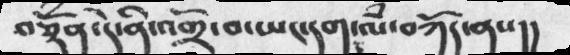བཅྡོན་དེ་ནི་འགྲོ་བ་ཡང་དག་ལཾ་བཀོན་ནས།།
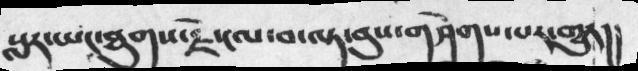སླར་ཡང་ཐུགས་རྗེ་ངལ་བ་ལྟ་བུས་གཤེགས་པར་གྱུར།།
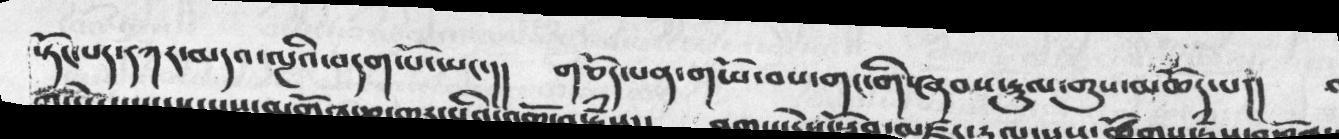སྟོང་པད་དཀར་མདའ་ལྔའི་བདག་པོ་ཡང་།།  གཅོད་པན་གཡོ་བས་གང་གི་ཞབས་རྡུལ་གུས་མཆོད་པ།།
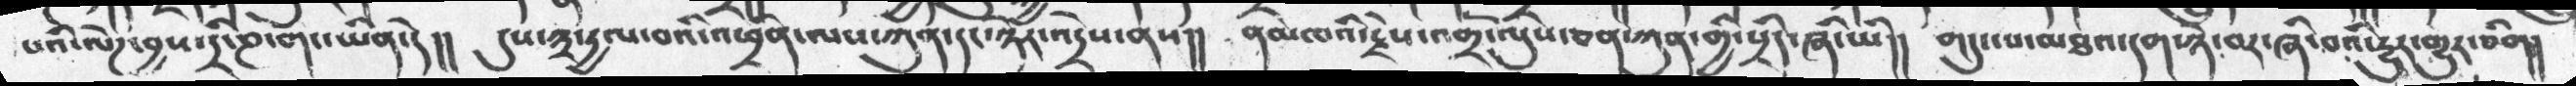པའི་ལེཌ་བྱས་དྲི་ཎ་གང་ཡིན་དེ།།    དུས་༣་རྱལ་བའི་འཕྲིན་ལས་ཀུན་དང་ཉེར་འདྲེས་ནས།།   ནམཁའི་རྗེས་འགྲོ་ལུས་ཅན་ཀུན་གྱི་སྲིད་ཞི་ཡི།།   གདུད་པ་མཐའ་དག་ཉེ་བར་ཞི་བའི་རྱུར་གྱུར་ཅིག།
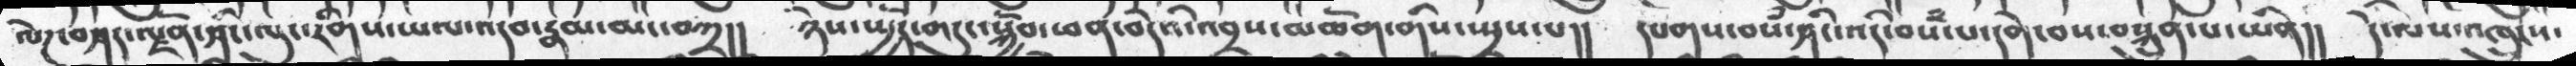ལེཌ་བཤད་ལྗོན་ཤིང་ལུང་རིགས་ཡལ་འདབ་རྣམ་མང་བཀྲ།།    ཉེས་ཡོད་གདུང་སྐྱོབ་ཕན་བདེའི་འབྲས་མཆོག་གིས་ཡྲས་པ།།    དཔག་བསཾ་ཤིང་འདི་བསཾ་པ་དགེ་བས་བསྐྲུན་པ་ཡིན།།    དེ་ལས་འཁྲུངས་
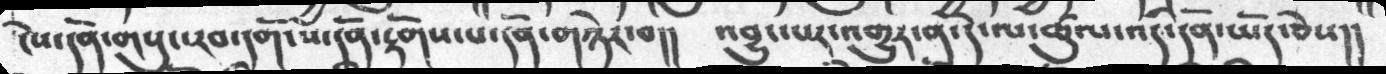ངེས་དོན་གསུང་རབ་དགོངས་དོན་རྟོགས་པ་དོན་གཉེར་བ།།  འབྱུང་པར་གྱུར་ན་དེ་ལ་ཚུལ་འདི་དོན་ཡོད་ཅེས།།
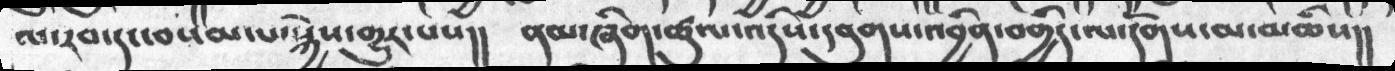ལ་རབ་དང་བསམ་པ་སྐྱེས་གྱུར་པས།།  ནམ་ཞིག་ཚུལ་འདིས་དབུགས་འབྱིན་བགྱིད་ལ་དོགས་མ་མཆིས།།
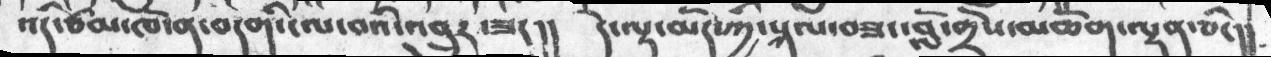འདི་ཙམ་ཁོ་ན་བདགི་ངལ་བའི་འབྲུར་ཟད།།   དེ་ལྟ་མོད་ཀྱི་སྐལ་བཟང་བློ་གྲོས་མཆོག་ལྡན་ཅིང།།
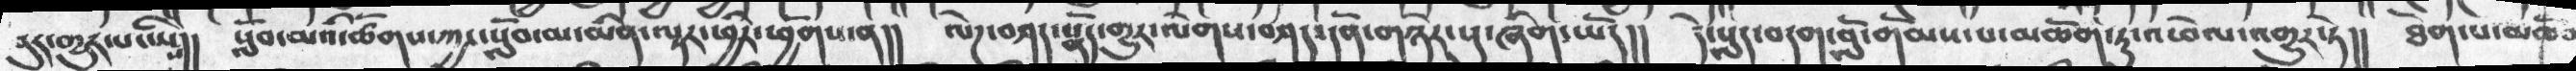པུར་གྱུར་པ་ཡིས།།  སློབ་མའི་ཚོགས་ཀྱང་སློབ་མ་མིན་ལྟར་ཕྱིར་ཕྱོགས་ན།། ལེཌ་བཤད་སྣོད་གྱུར་ལེགས་བཤད་དོན་གཉེར་སུ་ཞིག་ཡོད།། དེ་སླད་བདག་བློ་གོམས་པ་མཆོག་ཏུ་འཕེལ་འགྱུར་ཏེ།།  ཐེག་པ་མཆོག
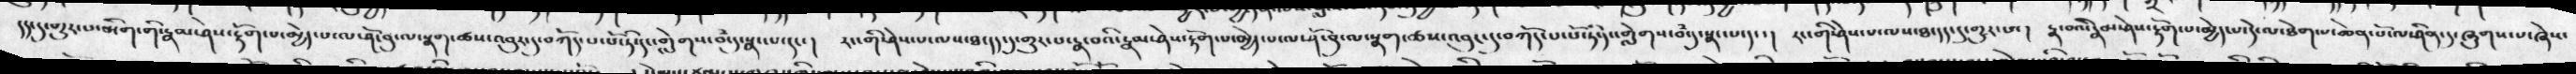དད་དུ་གྱུར་པ་མིག་གི་རྣམམ་ཤེས་རྟོག་པ་མྱེད་པ་ལ་ཤོ་བུ་ལ་སྣག་ཚས་འབུར་དུ་བཀོད་པ་པོ་ཏི་གླེགས་བཾ་དུ་སྣང་པ་དང་།  རང་གི་ཤེས་པ་ལས་ཐ་དད་དུ་གྱུར་པ་རྣ་བའི་རྣམ་ཤེས་རྟོག་པ་མྱེད་པ་ལ་ཤོ་བུ་ལ་སྣག་ཚས་འབུང་དུ་བཀོད་པ་པོ་ཏི་དང་གླེགས་བཾ་དུ་སྣང་བ་དང་།  རང་གི་ཤེས་པ་ལས་ཐ་དད་དུ་གྱུར་པ་།  རྣ་བའི་རྣམ་ཤེས་རྟོག་པ་མྱེད་པ་དེ་ལ་ཐེག་པ་ཆེན་པོ་ལ་ཤིན་དུ་ཞུགས་པ་ཞེས་
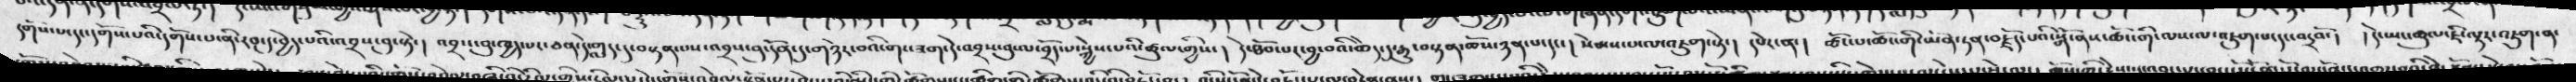དགོས་པ་དང་དགོས་པའི་དགོས་པ་ནི་རབ་དུ་བྱེད་པའི་འབྲས་བུ་སྟ་།  འབྲས་བུ་ཁྱད་པར་ཅན་དེ་གླད་དུ་བསྟན་པས་འབྲས་བུ་དོན་དུ་གཉེར་བའི་གང་ཟག་དེ་འབྲས་བུ་ལ་བྲོད་པ་སྐྱེས་པའི་ཚུལ་གྱིས་།  དེ་ཐོབ་པར་བྱ་བའི་ཆེད་དུ་རྒྱུ་བསྟན་ཆོས་ཉན་པ་དང་།  སེམས་པ་ལ་འཇུག་སྟེ་།  དཔེར་ན་་།  ཚོང་པ་ཚོང་ག་ཡོན་ཏན་བརྗོད་པའི་སྒོ་ནས་ཚོང་གི་ལས་ལ་འཇུག་པ་དང་འདྲའོ་།  ། དེ་ཡང་ཚུལ་ཇི་ལྟར་འཇུག་ན་
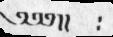༄༅༅ །།  ༴
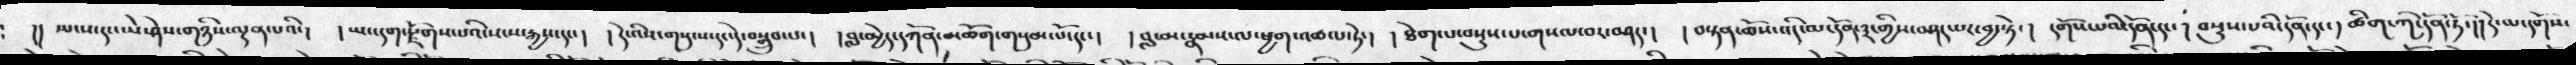།།  སྤངས་དང་ཡེ་ཤེས་གཉིས་ལྡན་པའི་།  །ཡང་དག་རྫོགས་པའི་སངས་རྒྱས་དང་།  །དེ་འིས་གསུངས་དང་དེ་བསྒྲུབ་པ་། །བླ་མྱེད་དཀོན་མཆོག་གསུམ་པོ་དང་། །བླ་མ་རྣམས་ལ་ཕྱག་འཚལ་ཏེ་། །ཐེག་པ་བསྡུས་པ་གསལ་བར་བཤད་། །བསྟན་ཆོས་འདི་ལ་དོན་༣་གྱིས་བཤད་པར་བྱ་སྟེ་།  དགོས་པའི་དོན་དང་། བསྡུས་པའི་དོན་དང་། ཚིག་ཀི་དོན་ཏེ་།།དེ་མ་དགོས་
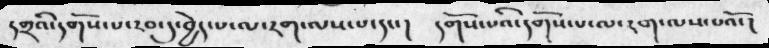དགྲའི་དགོས་པ་རབ་དུ་བྱེད་པ་ལ་རག་ལས་པ་དང་།  དགོས་པའི་དགོས་པ་ལ་རག་ལས་པའོ་།
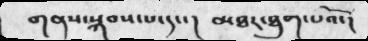གནས་སྐབས་པ་དང་།  མཐར་ཐུག་པའོ་།
